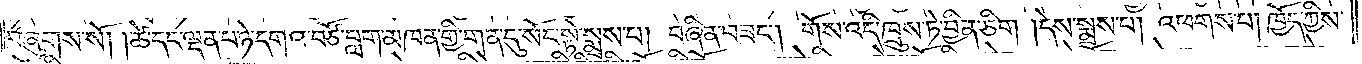བཞུགས་སོ། །ཚེ་དང་ལྡན་པ་ཉེ་དགའ་བཙོ་བླག་མཁན་གྱི་གན་དུ་སོང་སྟེ་སྨྲས་པ། བཞིན་བཟང༌། གོས་འདི་ཁྲུས་ཏེ་བྱིན་ཅིག །དེས་སྨྲས་པ། འཕགས་པ། ཁྱོད་ཀྱིས་
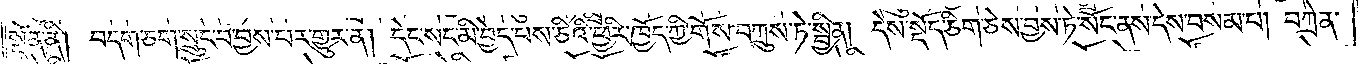སྔོན་ནི། བདག་ཅག་སྲུང་བ་བྱས་པར་གྱུར་ན། དེང་སང་མི་བྱེད་པས་ཅིའི་ཕྱིར་ཁྱོད་ཀྱི་གོས་བཀྲུས་ཏེ་སྦྱིན། དེས་སྡོད་ཅིག་ཅེས་བྱས་ཏེ་སོང་ནས་དེས་བསམ་པ། བཀྲེན་
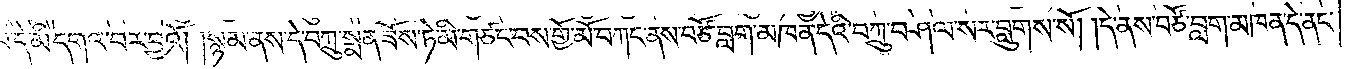པ་དེ་མི་དགའ་བར་བྱའོ། །སྙམ་ནས་དེ་བཀྲུ་སྨན་ཟོས་ཏེ་མི་གཙང་བས་གྱོ་མོ་བཀང་ནས་བཙོ་བླག་མཁན་དེའི་བཀྲུ་བཤལ་སར་བླུགས་སོ། །དེ་ནས་བཙོ་བླག་མཁན་དེ་ནང་
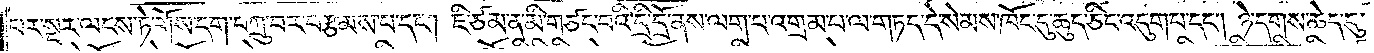པར་སྔར་ལངས་ཏེ་གོས་དག་བཀྲུ་བར་བརྩམས་པ་དང༌། ཇི་ཙམ་ན་མི་གཙང་བའི་དྲི་དྲོ་ནས་ལག་པ་འགྲམ་པ་ལ་གཏད་དེ་སེམས་ཁོང་དུ་ཆུད་ཅིང་འདུག་པ་དང༌། ཉེ་དགས་ཆེད་དུ་
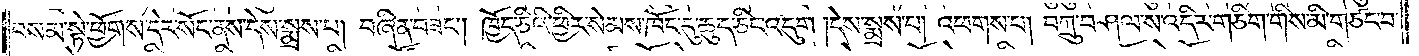བསམ་སྟེ་ཕྱོགས་དེར་སོང་ནས་དེས་སྨྲས་པ། བཞིན་བཟང༌། ཁྱོད་ཅིའི་ཕྱིར་སེམས་ཁོང་དུ་ཆུད་ཅིང་འདུག །དེས་སྨྲས་པ། འཕགས་པ། བཀྲུ་བཤལ་ས་འདིར་གཅིག་གིས་མི་གཙང་བ་
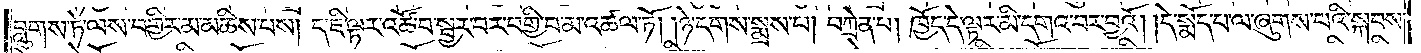བླུགས་ཏེ་ལས་བགྱིར་མ་མཆིས་པས། ད་ཇི་ལྟར་འཚོ་བ་སྦྱར་བར་བགྱི་བ་མ་འཚལ་ཏོ། །ཉེ་དགས་སྨྲས་པ། བཀྲེན་པ། ཁྱོད་དེ་ལྟར་མི་དགའ་བར་བྱའོ། །དེ་སྨོད་པ་ལ་ཞུགས་པའི་སྐབས་
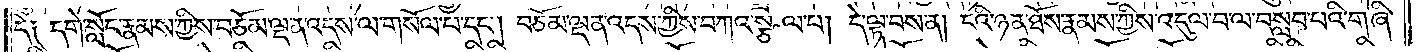དེ༑ དགེ་སློང་རྣམས་ཀྱིས་བཅོམ་ལྡན་འདས་ལ་གསོལ་པ་དང༌། བཅོམ་ལྡན་འདས་ཀྱིས་བཀའ་སྩལ་པ། དེ་ལྟ་བས་ན། ངའི་ཉན་ཐོས་རྣམས་ཀྱིས་འདུལ་བ་ལ་བསླབ་པའི་གཞི་
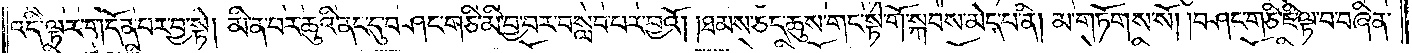འདི་ལྟར་གདོན་པར་བྱ་སྟེ། མི་ན་བར་ཆུའི་ནང་དུ་བཤང་གཅི་མི་བྱ་བར་བསླབ་པར་བྱའོ། །ཐམས་ཅད་ཆུས་གང་སྟེ་གོ་སྐབས་མེད་པ་ནི། མ་གཏོགས་སོ། །བཤང་གཅི་ཇི་ལྟ་བ་བཞིན་
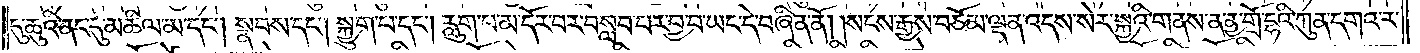དུ་ཆུའི་ནང་དུ་མཆིལ་མ་དང༌། སྣབས་དང༌། སྐྱུག་པ་དང༌། རླུག་པ་མ་དོར་བར་བསླབ་པར་བྱ་བ་ཡང་དེ་བཞིན་ནོ། །སངས་རྒྱས་བཅོམ་ལྡན་འདས་སེར་སྐྱའི་གནས་ན་ནྱ་གྲོ་དྷའི་ཀུན་དགའ་ར་
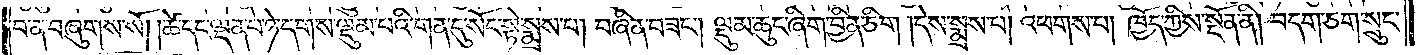བ་ན་བཞུགས་སོ། །ཚེ་དང་ལྡན་པ་ཉེ་དགས་ལྡུམ་པའི་གན་དུ་སོང་སྟེ་སྨྲས་པ། བཞིན་བཟང༌། ལྡུམ་ཆུང་ཞིག་བྱིན་ཅིག །དེས་སྨྲས་པ། འཕགས་པ། ཁྱོད་ཀྱིས་སྔོན་ནི། བདག་ཅག་སྲུང་
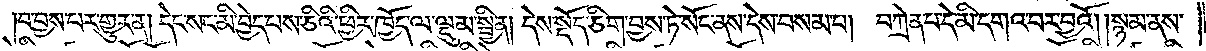བ་བྱས་པར་གྱུར་ན། དེང་སང་མི་བྱེད་པས་ཅིའི་ཕྱིར་ཁྱོད་ལ་ལྡུམ་སྦྱིན། དེས་སྡོད་ཅིག་བྱས་ཏེ་སོང་ནས་དེས་བསམ་པ། བཀྲེན་པ་དེ་མི་དགའ་བར་བྱའོ། །སྙམ་ནས་
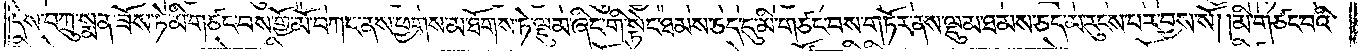དེས་བཀྲུ་སྨན་ཟོས་ཏེ་མི་གཙང་བས་གྱོ་མོ་བཀང་ནས་ཕྱགས་མ་ཐོགས་ཏེ་ལྡུམ་ཞིང་གི་སྟེང་ཐམས་ཅད་དུ་མི་གཙང་བས་གཏོར་ནས་ལྡུམ་ཐམས་ཅད་མ་རུངས་པར་བྱས་སོ། །མི་གཙང་བའི་
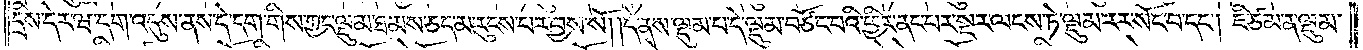དྲིས་དེར་ཝ་དག་འདུས་ནས་དེ་དག་གིས་ཀྱང་ལྡུམ་ཐམས་ཅད་མ་རུངས་པར་བྱས་སོ། །དེ་ནས་ལྡུམ་པ་དེ་ལྡུམ་བཙོང་པའི་ཕྱིར་ནང་པར་སྔར་ལངས་ཏེ་ལྡུམ་རར་སོང་བ་དང༌། ཇི་ཙམ་ན་ལྡུམ་
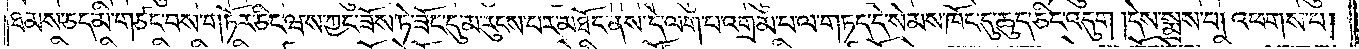ཐམས་ཅད་མི་གཙང་བས་གཏོར་ཅིང་ཝས་ཀྱང་ཟོས་ཏེ་ཟོང་དུ་མ་རུངས་པར་མཐོང་ནས་དེ་ལག་པ་འགྲམ་པ་ལ་གཏད་དེ་སེམས་ཁོང་དུ་ཆུད་ཅིང་འདུག །དེས་སྨྲས་པ། འཕགས་པ།
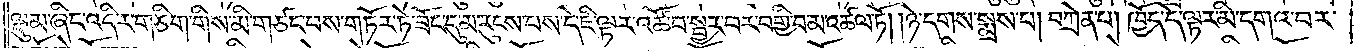ལྡུམ་ཞིང་འདིར་གཅིག་གིས་མི་གཙང་བས་གཏོར་ཏེ་ཟོང་དུ་མ་རུངས་པས་དེ་ཇི་ལྟར་འཚོ་བ་སྦྱར་བར་བགྱི་བ་མ་འཚལ་ཏོ། །ཉེ་དགས་སྨྲས་པ། བཀྲེན་པ། ཁྱོད་དེ་ལྟར་མི་དགའ་བར་
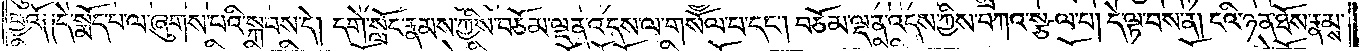བྱའོ༑ ༑དེ་སྨོད་པ་ལ་ཞུགས་པའི་སྐབས་དེ། དགེ་སློང་རྣམས་ཀྱིས་བཅོམ་ལྡན་འདས་ལ་གསོལ་པ་དང༌། བཅོམ་ལྡན་འདས་ཀྱིས་བཀའ་སྩལ་པ། དེ་ལྟ་བས་ན། ངའི་ཉན་ཐོས་རྣམས་
